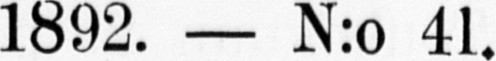1892. — N:o 41.
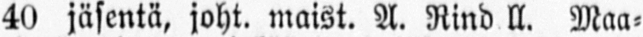40 jäsentä, joht. maist. A. Rind ll. Maa-
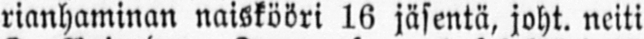rianhaminan naiskööri 16 jäsentä, joht. neiti
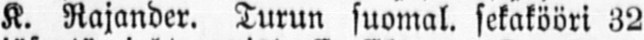K. Rajander. Turun suomal, sekakööri 82
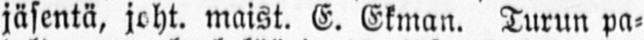jäsentä, joht. maist. E. Ekman. Turun pa-
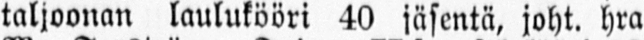taljoonan laulukööri 40 jäsentä, joht. hra
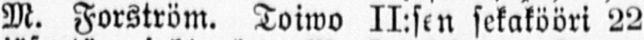M. Forström. Toiwo II:sen sekakööri 22
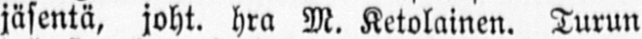jäsentä, joht. hra M. Ketolainen. Turun
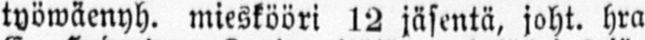työwäenyh. mieskööri 12 jäsentä, joht. hra
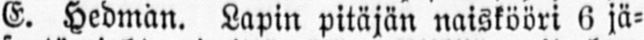E. Hedman. Lapin pitäjän naiskööri 6 jä-
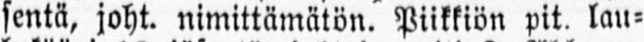sentä, joht. nimittämätön. Piikkiön pit. lau-
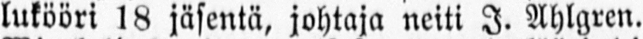lukööri 18 jäsentä, johtaja neiti I. Ahlgren.
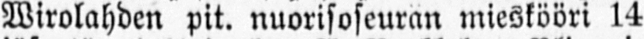Wirolahden pit. nuorisoseuran mieskööri 14
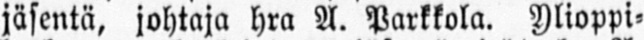jäsentä, johtaja hra A. Parkkola. Ylioppi-
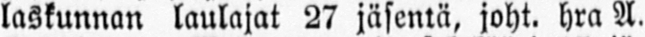laskunnan laulajat 27 jäseniä, joht. hra A.
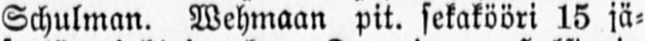Schulman. Wehmaan pit. sekakööri 15 jä-
